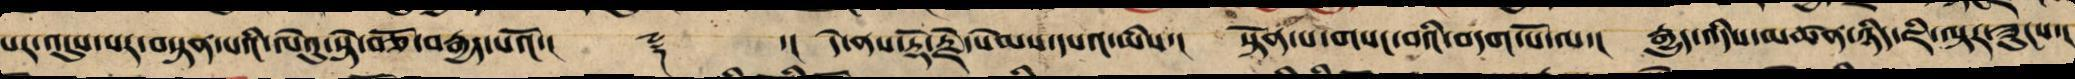པར་འདུས་པར་བསྟན་པའི་ལེའུ་སྟེ་བཅོ་བརྒྱད་པའོ་།། ༈ ་།། དེ་ནས་རྡོ་རྗེ་སེམས་དཔའ་ཡིས་། སྟོན་པ་གསང་བའི་བདག་པོ་ལ་། རྒྱུད་འདིས་མཚན་ནི་ཇི་ལྟར་ཟུངས་།
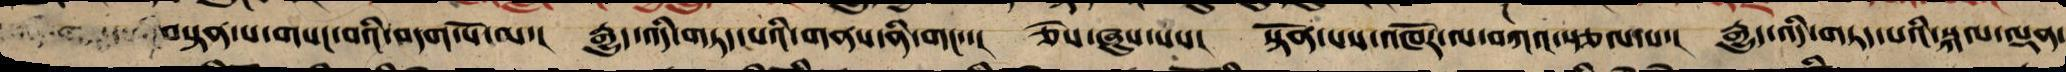སྟོན་པ་གསང་བའི་བདག་པོ་ལ་། རྒྱུད་འདི་གཏད་པའི་གནས་ནི་གང་་། ཅེས་ཞུས་པས་། སྟོན་པས་འཁོར་ལ་བཀའ་སྩལ་པ་། རྒྱུད་འདི་གཏད་པའི་སྐལ་ལྡན་
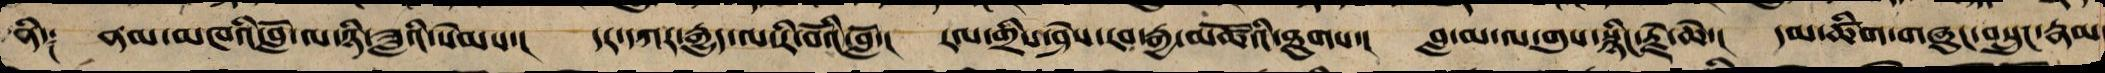ནི༑ ནམ་མཁའི་བློ་ལ་ཉི་ཟླའི་སེམས་། དར་དཀར་རྒྱུད་ལ་རི་བོའི་བློ་། རལ་གྲིའི་ཤེས་རབ་རྒྱ་མཚོའི་ཐུགས་། བླ་མ་ལ་གུས་སྙིང་རྗེ་ཆེ་། དམ་ཚིག་གཞུང་བསྲུང་རྣམ
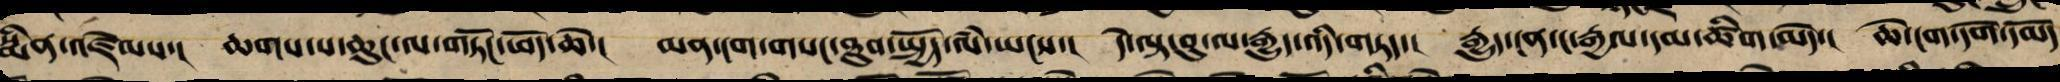སྨིན་འཛེམས་། ཆགས་པ་ཆུང་ལ་གཏོང་ཕོད་ཆེ་། མན་ངག་གསང་ཐུབ་སྤྱོད་ལཾ་ཡངས་། དེ་ལྟ་བུ་ལ་རྒྱུད་འདི་གཏད་། རྒྱུད་ངན་ང་རྒྱལ་དམ་ཚིག་མེད་། ཆེ་ངག་དགེ་དམོད
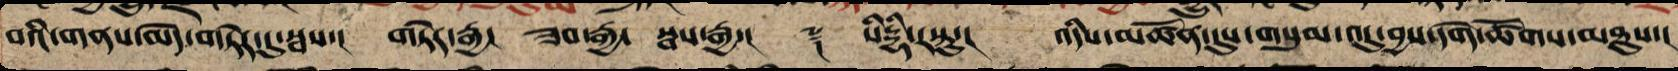བའི་གནས་མེད་གཏེར་དུ་སྦས་། གཏེར་རྒྱ། ཟབ་རྒྱ། སྦས་རྒྱ།། ༈ སིདྡྷི་རསྟུ་། འདིས་མཚོན་དུས་གསུམ་འདུ་བྱས་དགེ་ཚོགས་མཐུས་།
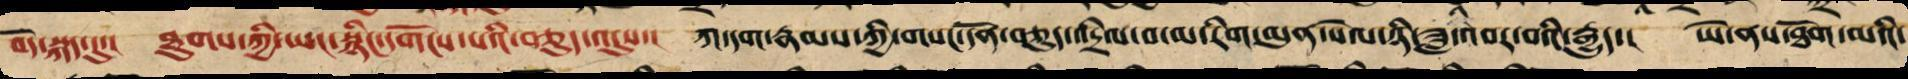བོད་སྐད་དུ་། ཐུགས་ཀྱི་ཡང་སྙིང་དགོངས་པའི་བཅུད་འདུས་པ་། ཀ་དག་རྣམས་ཀྱི་གསང་དོན་བཅུད་དྲིལ་བ་མ་རིག་མུན་སེལ་ཉི་ཟླ་འབར་བའི་རྒྱུད་། ཡེ་གནས་ཐོག་མའི་
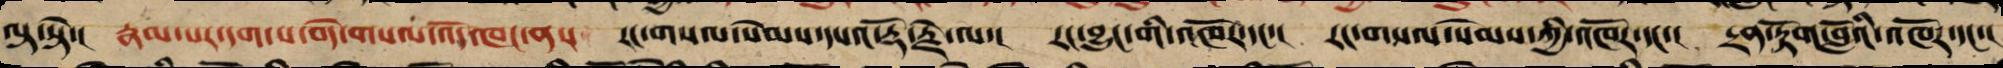ལྟ་སྟེ་། རྣམ་པར་དག་པ་བདེ་གསལ་འོད་ཁང་ན་། རང་གསལ་སེམས་དཔའ་རྡོ་རྗེ་ལ་། རང་བྱུང་གི་འཁོར་དང་། རང་གསལ་སེམས་ཀྱི་འཁོར་དང་། དྲན་རྟོག་བློའི་འཁོར་དང་།
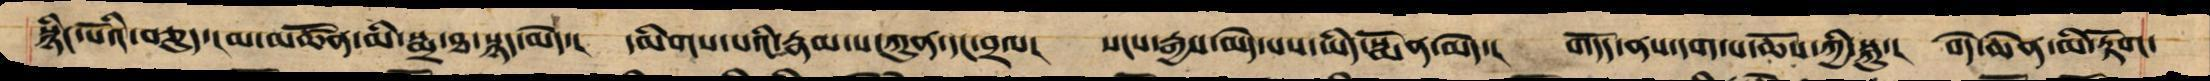སྙིང་པོའི་བཅུད་།མ་མཚོན་མི་སྨྲ་ཐ་སྙད་མེད་། དམིགས་པའི་རྣམ་པ་ཀུན་དང་བྲལ་། སངས་རྒྱས་མེད་པས་ཡིད་སྨོན་མེད་། གདོད་ནས་དག་པ་ཆོས་ཀྱི་སྐུ་། བདེ་ཆེན་མི་རྟོག་
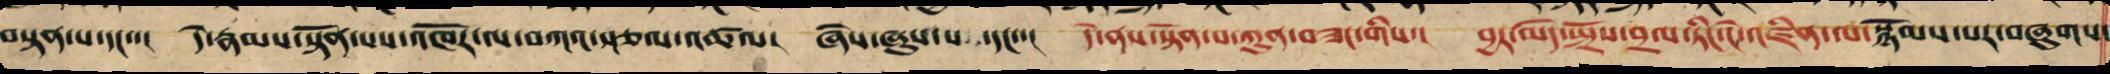བསྟན་པ་དང་་། དེ་རྣམས་སྟོན་པས་འཁོར་ལ་བཀའ་སྩལ་འཚལ་། ཞེས་ཞུས་པ་དང་་། དེ་ནས་སྟོན་པ་ཀུན་བཟང་གིས་། བྱར་མེད་སྤྲོས་བྲལ་གྱི་ཏིང་ངེ་འཛིན་ལ་སྙོམས་པར་བཞུགས་
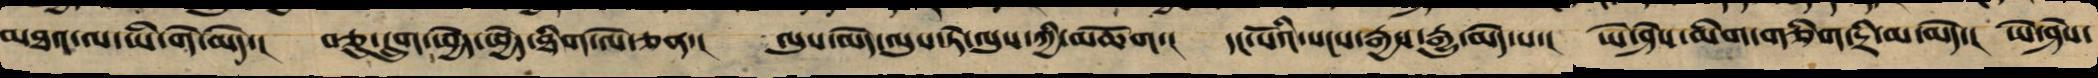མཐའ་ལ་ཡི་གེ་མེད་། བཅུ་དྲུག་ཕྱེད་ཕྱེད་ཐིག་ལེ་ཅན་། ལུས་མེད་ལུས་ཏེ་ལུས་ཀྱི་མཆོག། དང་པོའི་སངས་རྒྱས་རྒྱུ་མེད་པ་། ཡེ་ཤེས་མིག་གཅིག་དྲི་མ་མེད་། ཡེ་ཤེས་
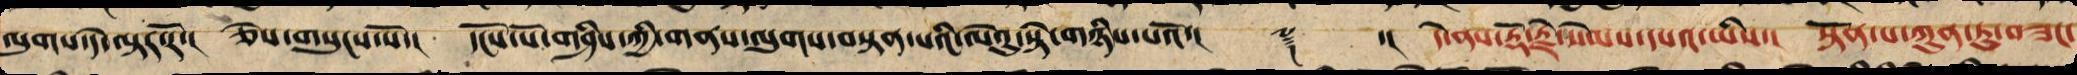ལུགས་དེ་ལྟར་རོ་། ཅེས་གསུངས་སོ་། དངོས་པོ་གཤིས་ཀྱི་གནས་ལུགས་བསྟན་པའི་ལེའུ་སྟེ་གཉིས་པའོ་།། ༈ ་།། དེ་ནས་རྡོ་རྗེ་སེམས་དཔའ་ཡིས་། སྟོན་པ་ཀུན་ཏུ་བཟང་
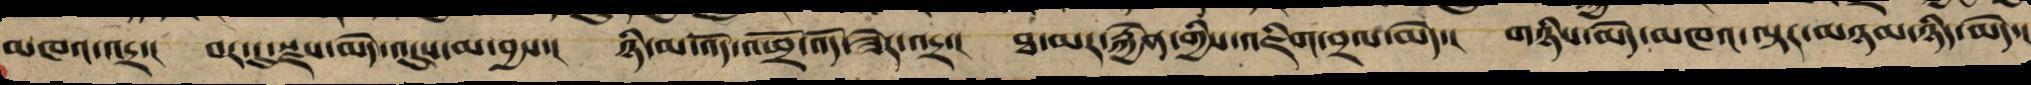མཁའ་འདྲ་། བར་དུ་སྫས་མེད་འདུས་མ་བྱས་། ཉི་མ་འོད་འཕྲོ་འོད་ཟེར་འདྲ་། ཐ་མར་རྐྱེན་གྱིས་འཇིག་བྲལ་མེད་། གཉིས་མེད་མཁའ་ལྟར་མཉམ་ཉིད་མེད་།
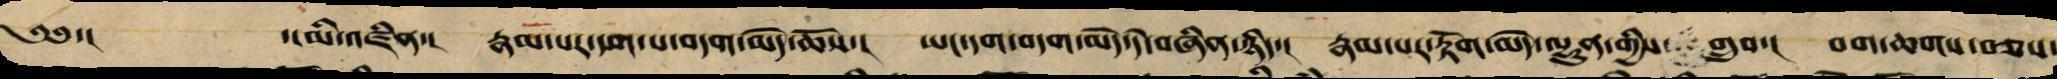༄༅་། ་།མི་འཛིན་། རྣམ་པར་དག་པ་བདག་མེད་ཆོས་། ཡང་དག་བདག་མེད་དེ་བཞིན་ཉིད་། རྣམ་པར་རྟོག་མེད་ལྷུན་གྱིས་གྲུབ་། བག་ཆགས་བཅས་
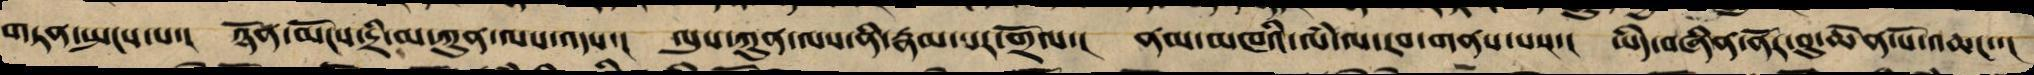གཏན་སྤངས་པ་། ཉོན་མོངས་དྲི་མ་ཀུན་ལས་འདས་། ལུས་ཀུན་ལས་ནི་རྣམ་པར་གྲོལ་། ནམ་མཁའི་ལཾ་ལ་རབ་གནས་པས་། ཡིད་བཞིན་ནོར་བུ་ཆེན་པོ་འཆང་་།
